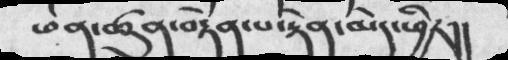ཕན་ཚུན་བརྟེན་པ་རྟེན་མེད་ཕྱིར།།
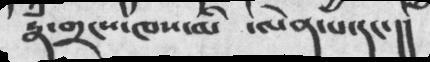རྣཾ་གྲངས་ཁས་མི་  ལེན་པ་དང་།།
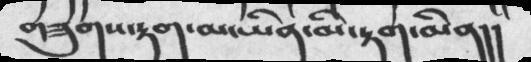གཟུགས་རྟག་མ་ཡིན་མི་རྟག་མིན།།
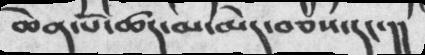ཆེན་པོ་ཚད་མ་མེད་བཅས་དང་།།
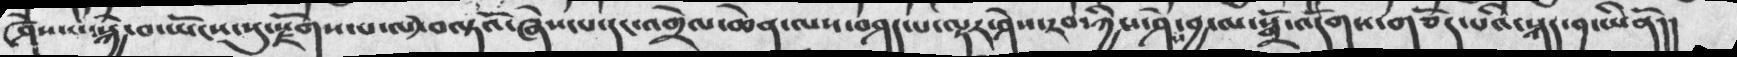ཤེས་པ་སྐྱེ་བ་ཡོངས་སུ་རྫོགས་པ་ལ་བལྟའོ་ཞེས་པ་དང་འགྲེལ་ཆེན་ལས་བཤད་པ་ལྟར་ཤེས་རབ་ཀྱིས་ཤེས་བྱ་ལ་སྒྲོ་འདོགས་གཅོད་པའི་སྐད་༡་ཡིནོ།།
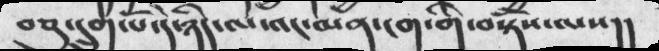བཅུ་དྲུག་པོ་དེ་ཉིད་ལ་འང་མན་ངག་གི་བསྟོས་ལས།།
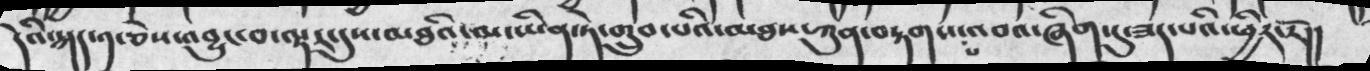དེའི་སྐད་༡་ཅེས་འབྱུང་བ་ལྟར་དུས་མཐའི་མ་ཡིན་ཏེ་གྲུབ་པའི་མཐས་ཀུན་བརྟགས་པ་འབའ་ཞིག་དུ་ཟད་པའི་ཕྱིར་རོ།།
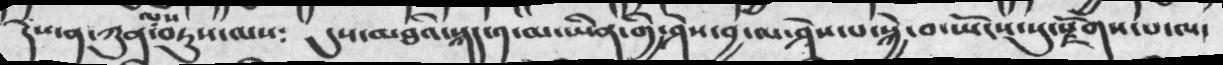དེས་ན་ཀུན་ལས་བཏུས་ལས༴   དུས་མཐའི་སྐད་༡་མ་ཡིན་གྱི་ཤེས་བྱ་ལ་ཤེས་པ་སྐྱེ་བ་ཡོངས་སུ་རྫོགས་པ་ལ་
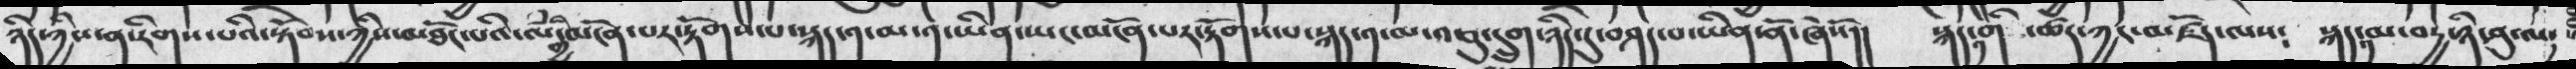ཉིད་ཀྱིས་ན་རིགས་པའི་སྟོབས་ཀྱིས་མཐོང་པའི་ལཾ་གྱི་མངོན་པར་རྟོགས་པ་སྐད་༡་ཡིན་ཡང་མངོན་པར་རྟོགས་པ་སྐད་༡་མ་བཅུ་དྲུག་ཉིད་དུ་བཤད་པ་ཡིན་ནོ་ཞེསོ།།  སྐད་༡་གི་  ཚད་ཀྱང་མཛོད་ལས༴   སྐད་༡་མ་བདྱ་ཉི་ཤུ་ལ་
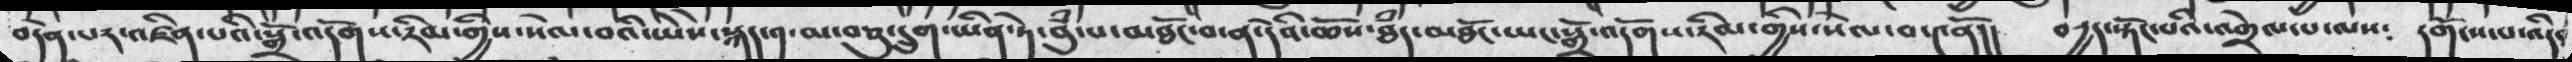བདེན་པར་འཛིན་པའི་སྒྲོ་འདོགས་རིམ་གྱིས་སེལ་བའི་ཡེེས་སྐད་༡་མ་བཅུ་དྲུག་ཡིན་ཏེ་བུཾ་པ་མཐོང་བ་ན་དེའི་ཆོས་ཐཾད་མཐོང་ཡང་སྒྲོ་འདོགས་རིམ་གྱིས་སེལ་བ་༤ནོ།།   བདྱད་སྟོང་པའི་འགྲེལ་པ་ལས༴   དགོངས་པ་འདི་
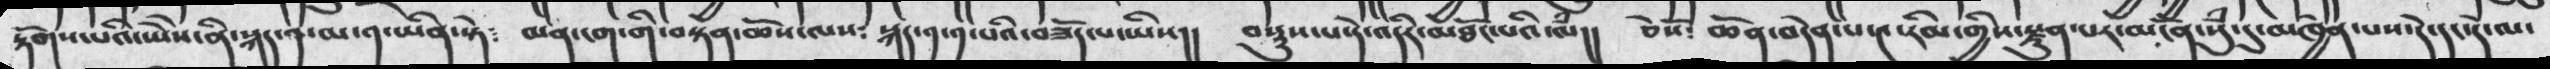རྟོགས་པའི་ཡེེས་ནི་སྐད་༡་མ་༡་ཡིན་སྟེ༴   མན་ངག་གི་བསྟན་ཆོས་ལས༴  སྐད་༡་༡་པའི་བཟོད་པ་ཡིས།།   བསྡུས་པ་དེ་འདིར་མཐོང་པའི་ལཾ།།   ཅེསོ༴   ཆེན་བདེན་པ་༤་རིམ་གྱིས་རྫུན་པར་མངོན་སུཾ་དུ་མཁྱེན་པས་དེ་དང་དེ་མ་
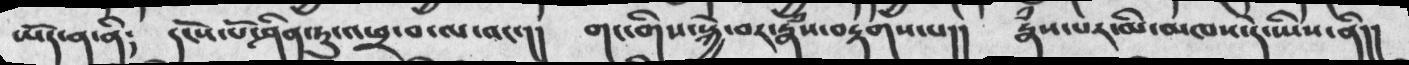ཡོད་ན་ནི༴    དངོས་པོ་ཤིན་ཏུ་འཕྲ་བ་ལ་འང་།།   གང་གིས་སྐྱེ་བར་རྣཾས་བརྟགས་པ།།   རྣཾས་པར་མི་མཁས་དེ་ཡིས་ནི།།
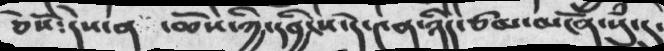ཅེསོ༴དེས་ན  ་ཆོས་ཀྱི་དབྱིངས་དེ་༤ན་ཉིད་ཅམ་མངོན་སུཾ་དུ་
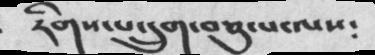རིགས་པ་དྲུག་བཅུ་པ་ལས༴
